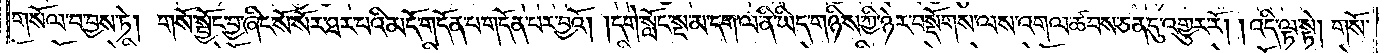གསོལ་བ་བྱས་ཏེ། གསོ་སྦྱོང་བྱ་ཞིང་སོ་སོར་ཐར་པའི་མདོ་གདོན་པ་གདོན་པར་བྱའོ། །དགེ་སློང་སྔ་མ་དག་ལ་ནི་ཡིད་གཉིས་ཀྱི་ཉེར་བསྡོགས་ལས་འགལ་ཚབས་ཅན་དུ་འགྱུར་རོ། །འདི་ལྟ་སྟེ། གསོ་
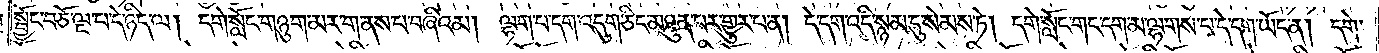སྦྱོང་བཅོ་ལྔ་པ་དེ་ཉིད་ལ། དགེ་སློང་གཉུག་མར་གནས་པ་བཞིའམ། ལྷག་པ་དག་འདུག་ཅིང་མཐུན་པར་གྱུར་པ་ན། དེ་དག་འདི་སྙམ་དུ་སེམས་ཏེ། དགེ་སློང་གང་དག་མ་ལྷགས་པ་དེ་དག་ཡོད་ན། དགེ་
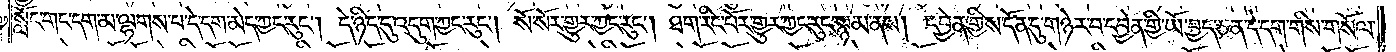སློང་གང་དག་མ་ལྷགས་པ་དེ་དག་མེད་ཀྱང་རུང༌། དེ་ཉིད་དུ་འདུག་ཀྱང་རུང༌། སོ་སོར་གྱུར་ཀྱང་རུང༌། ཐག་རིང་པོར་གྱུར་ཀྱང་རུང་སྙམ་ནས། དབྱེན་གྱིས་དོན་དུ་གཉེར་བ་དབྱེན་གྱི་ཡོ་བྱད་ཅན་དེ་དག་གིས་གསོལ་
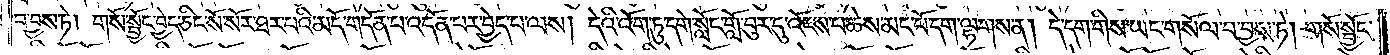བ་བྱས་ཏེ། གསོ་སྦྱོང་བྱེད་ཅིང་སོ་སོར་ཐར་པའི་མདོ་གདོན་པ་འདོན་པར་བྱེད་པ་ལས། དེའི་འོག་ཏུ་དགེ་སློང་གློ་བུར་དུ་འོངས་པ་ཆེས་མང་པོ་དག་ལྷགས་ན། དེ་དག་གིས་ཡང་གསོལ་བ་བྱས་ཏེ། གསོ་སྦྱོང་
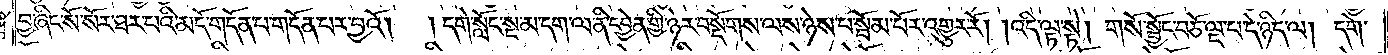བྱ་ཞིང་སོ་སོར་ཐར་པའི་མདོ་གདོན་པ་གདོན་པར་བྱའོ། །དགེ་སློང་སྔ་མ་དག་ལ་ནི་དབྱེན་གྱི་ཉེར་བསྡོགས་ལས་ཉེས་པ་སྦོམ་པོར་འགྱུར་རོ། །འདི་ལྟ་སྟེ། གསོ་སྦྱོང་བཅོ་ལྔ་པ་དེ་ཉིད་ལ། དགེ་
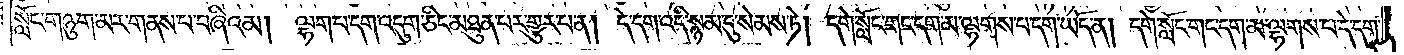སློང་གཉུག་མར་གནས་པ་བཞིའམ། ལྷག་པ་དག་འདུག་ཅིང་མཐུན་པར་གྱུར་པ་ན། དེ་དག་འདི་སྙམ་དུ་སེམས་ཏེ། དགེ་སློང་གང་དག་མ་ལྷགས་པ་དག་ཡོད་ན། དགེ་སློང་གང་དག་མ་ལྷགས་པ་དེ་དག་
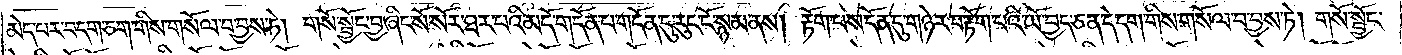མེད་པར་བདག་ཅག་གིས་གསོལ་བ་བྱས་ཏེ། གསོ་སྦྱོང་བྱ་ཞིང་སོ་སོར་ཐར་པའི་མདོ་གདོན་པ་གདོན་དུ་རུང་ངོ་སྙམ་ནས། རྟོག་བས་དོན་དུ་གཉེར་བ་རྟོག་པའི་ཡོ་བྱད་ཅན་དེ་དག་གིས་གསོལ་བ་བྱས་ཏེ། གསོ་སྦྱོང་
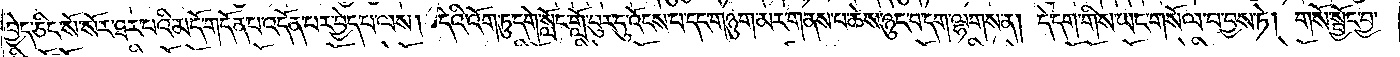བྱེད་ཅིང་སོ་སོར་ཐར་པའི་མདོ་གདོན་པ་འདོན་པར་བྱེད་པ་ལས། དེའི་འོག་ཏུ་དགེ་སློང་གློ་བུར་དུ་འོངས་པ་དང་གཉུག་མར་གནས་པ་ཆེས་ཉུང་བ་དག་ལྷགས་ན། དེ་དག་གིས་ཡང་གསོལ་བ་བྱས་ཏེ། གསོ་སྦྱོང་བྱ་
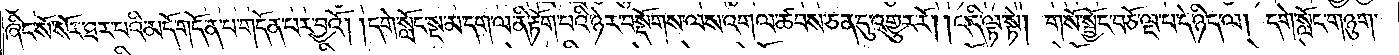ཞིང་སོ་སོར་ཐར་པའི་མདོ་གདོན་པ་གདོན་པར་བྱའོ། །དགེ་སློང་སྔ་མ་དག་ལ་ནི་རྟོག་པའི་ཉེར་བསྡོགས་ལས་འགལ་ཚབས་ཅན་དུ་འགྱུར་རོ། །འདི་ལྟ་སྟེ། གསོ་སྦྱོང་བཅོ་ལྔ་པ་དེ་ཉིད་ལ། དགེ་སློང་གཉུག་
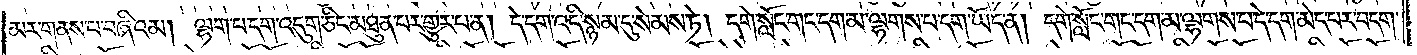མར་གནས་པ་བཞིའམ། ལྷག་པ་དག་འདུག་ཅིང་མཐུན་པར་གྱུར་པ་ན། དེ་དག་འདི་སྙམ་དུ་སེམས་ཏེ། དགེ་སློང་གང་དག་མ་ལྷགས་པ་དག་ཡོད་ན། དགེ་སློང་གང་དག་མ་ལྷགས་པ་དེ་དག་མེད་པར་བདག་
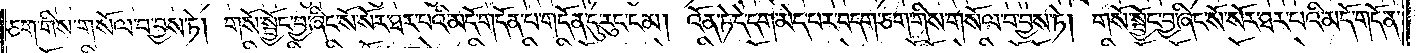ཅག་གིས་གསོལ་བ་བྱས་ཏེ། གསོ་སྦྱོང་བྱ་ཞིང་སོ་སོར་ཐར་པའི་མདོ་གདོན་པ་གདོན་དུ་རུང་ངམ། འོན་ཏེ་དེ་དག་མེད་པར་བདག་ཅག་གིས་གསོལ་བ་བྱས་ཏེ། གསོ་སྦྱོང་བྱ་ཞིང་སོ་སོར་ཐར་པའི་མདོ་གདོན་
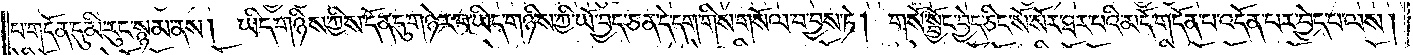པ་གདོན་དུ་མི་རུང་སྙམ་ནས། ཡིད་གཉིས་ཀྱིས་དོན་དུ་གཉེར་བ་ཡིད་གཉིས་ཀྱི་ཡོ་བྱད་ཅན་དེ་དག་གིས་གསོལ་བ་བྱས་ཏེ། གསོ་སྦྱོང་བྱེད་ཅིང་སོ་སོར་ཐར་པའི་མདོ་གདོན་པ་འདོན་པར་བྱེད་པ་ལས།
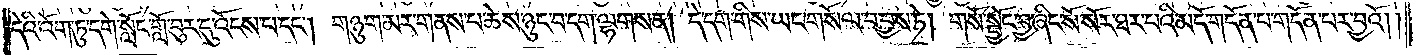དེའི་འོག་ཏུ་དགེ་སློང་གློ་བུར་དུ་འོངས་པ་དང༌། གཉུག་མར་གནས་པ་ཆེས་ཉུང་བ་དག་ལྷགས་ན། དེ་དག་གིས་ཡང་གསོལ་བ་བྱས་ཏེ། གསོ་སྦྱོང་བྱ་ཞིང་སོ་སོར་ཐར་པའི་མདོ་གདོན་པ་གདོན་པར་བྱའོ༎
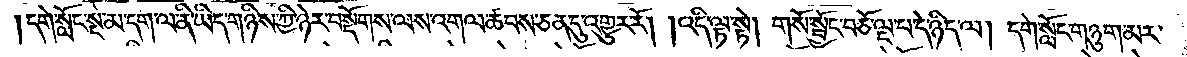དགེ་སློང་སྔ་མ་དག་ལ་ནི་ཡིད་གཉིས་ཀྱི་ཉེར་བསྡོགས་ལས་འགལ་ཚབས་ཅན་དུ་འགྱུར་རོ། །འདི་ལྟ་སྟེ། གསོ་སྦྱོང་བཅོ་ལྔ་པ་དེ་ཉིད་ལ། དགེ་སློང་གཉུག་མར་
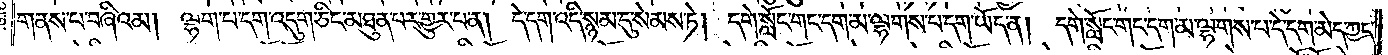གནས་པ་བཞིའམ། ལྷག་པ་དག་འདུག་ཅིང་མཐུན་པར་གྱུར་པ་ན། དེ་དག་འདི་སྙམ་དུ་སེམས་ཏེ། དགེ་སློང་གང་དག་མ་ལྷགས་པ་དག་ཡོད་ན། དགེ་སློང་གང་དག་མ་ལྷགས་པ་དེ་དག་མེད་ཀྱང་
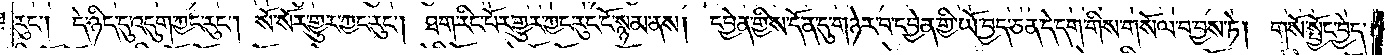རུང༌། དེ་ཉིད་དུ་འདུག་ཀྱང་རུང༌། སོ་སོར་གྱུར་ཀྱང་རུང༌། ཐག་རིང་པོར་གྱུར་ཀྱང་རུང་ངོ་སྙམ་ནས། དབྱེན་གྱིས་དོན་དུ་གཉེར་བ་དབྱེན་གྱི་ཡོ་བྱད་ཅན་དེ་དག་གིས་གསོལ་བ་བྱས་ཏེ། གསོ་སྦྱོང་བྱེད་
